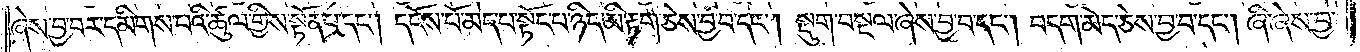ཞེས་བྱ་བར་དམིགས་པའི་ཚུལ་གྱིས་སྟོན་པ་དང༌། དངོས་པོ་མེད་པ་སྟོན་པ་ཉིད་མི་རྟག་ཅེས་བྱ་བ་དང༌། སྡུག་བསྔལ་ཞེས་བྱ་བ་དང༌། བདག་མེད་ཅེས་བྱ་བ་དང༌། ཞི་ཞེས་བྱ་
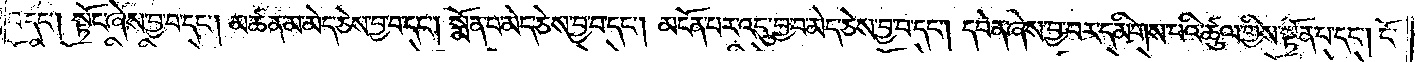བ་དང༌། སྟོང་ཞེས་བྱ་བ་དང༌། མཚན་མ་མེད་ཅེས་བྱ་བ་དང༌། སྨོན་པ་མེད་ཅེས་བྱ་བ་དང༌། མངོན་པར་འདུ་བྱ་བ་མེད་ཅེས་བྱ་བ་དང༌། དབེན་ཞེས་བྱ་བར་དམིགས་པའི་ཚུལ་གྱིས་སྟོན་པ་དང༌། ངོ་
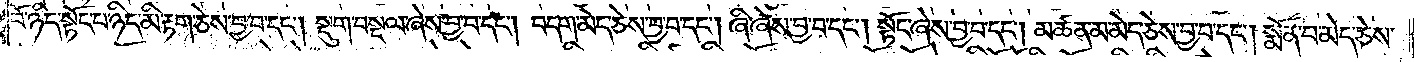བོ་ཉིད་སྟོང་པ་ཉིད་མི་རྟག་ཅེས་བྱ་བ་དང༌། སྡུག་བསྔལ་ཞེས་བྱ་བ་དང༌། བདག་མེད་ཅེས་བྱ་བ་དང༌། ཞི་ཞེས་བྱ་བ་དང༌། སྟོང་ཞེས་བྱ་བ་དང༌། མཚན་མ་མེད་ཅེས་བྱ་བ་དང༌། སྨོན་པ་མེད་ཅེས་
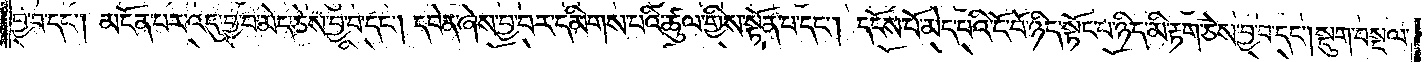བྱ་བ་དང༌། མངོན་པར་འདུ་བྱ་བ་མེད་ཅེས་བྱ་བ་དང༌། དབེན་ཞེས་བྱ་བར་དམིགས་པའི་ཚུལ་གྱིས་སྟོན་པ་དང༌། དངོས་པོ་མེད་པའི་ངོ་བོ་སྟོང་པ་ཉིད་མི་རྟག་ཅེས་བྱ་བ་དང༌། སྡུག་བསྔལ་
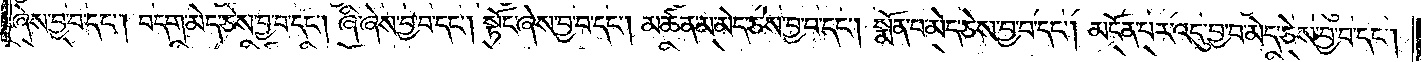ཞེས་བྱ་བ་དང༌། བདག་མེད་ཅེས་བྱ་བ་དང༌། ཞི་ཞེས་བྱ་བ་དང༌། སྟོང་ཞེས་བྱ་བ་དང༌། མཚན་མ་མེད་ཅེས་བྱ་བ་དང༌། སྨོན་པ་མེད་ཅེས་བྱ་བ་དང༌། མངོན་པར་འདུ་བྱ་བ་མེད་ཅེས་བྱ་བ་དང༌།
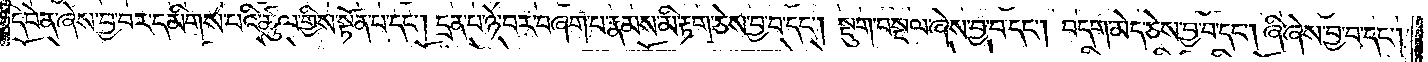དབེན་ཞེས་བྱ་བར་དམིགས་པའི་ཚུལ་གྱིས་སྟོན་པ་དང༌། དྲན་པ་ཉེ་བར་བཞག་པ་རྣམས་མི་རྟག་ཅེས་བྱ་བ་དང༌། སྡུག་བསྔལ་ཞེས་བྱ་བ་དང༌། བདག་མེད་ཅེས་བྱ་བ་དང༌། ཞི་ཞེས་བྱ་བ་དང༌།
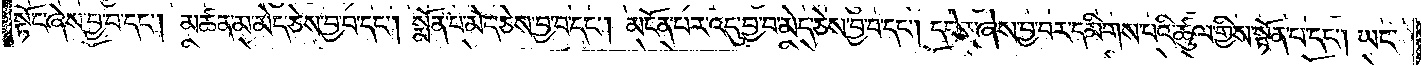སྟོང་ཞེས་བྱ་བ་དང༌། མཚན་མ་མེད་ཅེས་བྱ་བ་དང༌། སྨོན་པ་མེད་ཅེས་བྱ་བ་དང༌། མངོན་པར་འདུ་བྱ་བར་མེད་ཅེས་བྱ་བ་དང༌། དབེན་ཞེས་བྱ་བར་དམིགས་པའི་ཚུལ་གྱིས་སྟོན་པ་དང༌། ཡང་
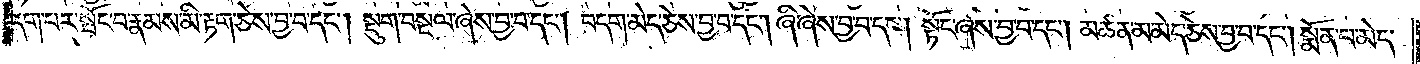དག་པར་སྤོང་བ་རྣམས་མི་རྟག་ཅེས་བྱ་བ་དང༌། སྡུག་བསྔལ་ཞེས་བྱ་བ་དང༌། བདག་མེད་ཅེས་བྱ་བ་དང༌། ཞི་ཞེས་བྱ་བ་དང༌། སྟོང་ཞེས་བྱ་བ་དང༌། མཚན་མ་མེད་ཅེས་བྱ་བ་དང༌། སྨོན་པ་མེད་
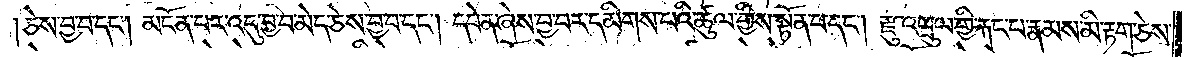ཅེས་བྱ་བ་དང༌། མངོན་པར་འདུ་བྱ་བ་མེད་ཅེས་བྱ་བ་དང༌། དབེན་ཞེས་བྱ་བར་དམིགས་པའི་ཚུལ་གྱིས་སྟོན་པ་དང༌། རྫུ་འཕྲུལ་གྱི་རྐང་པ་རྣམས་མི་རྟག་ཅེས་
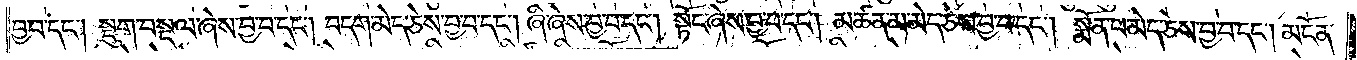བྱ་བ་དང༌། སྡུག་བསྔལ་ཞེས་བྱ་བ་དང༌། བདག་མེད་ཅེས་བྱ་བ་དང༌། ཞི་ཞེས་བྱ་བ་དང༌། སྟོང་ཞེས་བྱ་བ་དང༌། མཚན་མ་མེད་ཅེས་བྱ་བ་དང༌། སྨོན་པ་མེད་ཅེས་བྱ་བ་དང༌། མངོན་
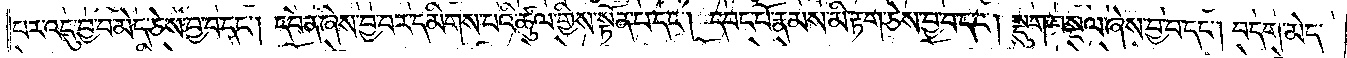པར་འདུ་བྱ་བ་མེད་ཅེས་བྱ་བ་དང༌། དབེན་ཞེས་བྱ་བར་དམིགས་པའི་ཚུལ་གྱི་སྟོན་པ་དང༌། དབང་པོ་རྣམས་མི་རྟག་ཅེས་བྱ་བ་དང༌། སྡུག་བསྔལ་ཞེས་བྱ་བ་དང༌། བདག་མེད་
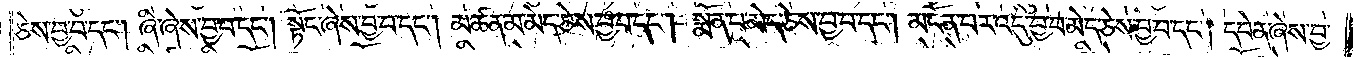ཅེས་བྱ་བ་དང༌། ཞི་ཞེས་བྱ་བ་དང༌། སྟོང་ཞེས་བྱ་བ་དང༌། མཚན་མ་མེད་ཅེས་བྱ་བ་དང༌། སྨོན་པ་མེད་ཅེས་བྱ་བ་དང༌། མངོན་པར་འདུ་བྱ་བ་མེད་ཅེས་བྱ་བ་དང༌། དབེན་ཞེས་བྱ་
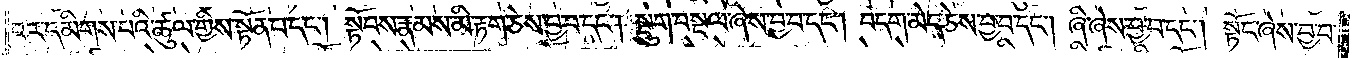བར་དམིགས་པའི་ཚུལ་གྱིས་སྟོན་པ་དང༌། སྟོབས་རྣམས་མི་རྟག་ཅེས་བྱ་བ་དང༌། སྡུག་བསྔལ་ཞེས་བྱ་བ་དང༌། བདག་མེད་ཅེས་བྱ་བ་དང༌། ཞི་ཞེས་བྱ་བ་དང༌། སྟོང་ཞེས་བྱ་བ་
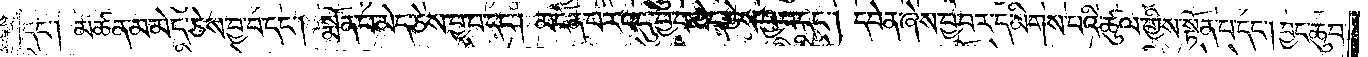དང༌། མཚན་མ་མེད་ཅེས་བྱ་བ་དང༌། སྨོན་པ་མེད་ཅེས་བྱ་བ་དང༌། མངོན་པར་འདུ་བྱ་བ་མེད་ཅེས་བྱ་བ་དང༌། དབེན་ཞེས་བྱ་བར་དམིགས་པའི་ཚུལ་གྱིས་སྟོན་པ་དང༌། བྱང་ཆུབ་
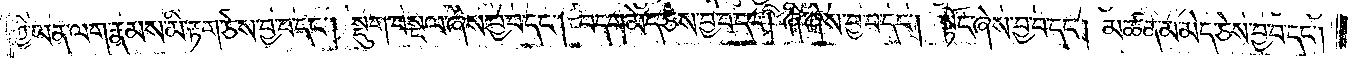ཀྱི་ཡན་ལག་རྣམས་མི་རྟག་ཅེས་བྱ་བ་དང༌། སྡུག་བསྔལ་ཞེས་བྱ་བ་དང༌། བདག་མེད་ཅེས་བྱ་བ་དང༌། ཞི་ཞེས་བྱ་བ་དང༌། སྟོང་ཞེས་བྱ་བ་དང༌། མཚན་མ་མེད་ཅེས་བྱ་བ་དང༌།
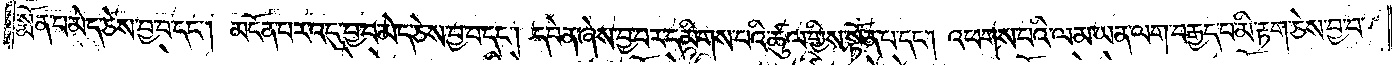སྨོན་པ་མེད་ཅེས་བྱ་བ་དང༌། མངོན་པར་འདུ་བྱ་བ་མེད་ཅེས་བྱ་བ་དང༌། དབེན་ཞེས་བྱ་བར་དམིགས་པའི་ཚུལ་གྱིས་སྟོན་པ་དང༌། འཕགས་པའི་ལམ་ཡན་ལག་བརྒྱད་པ་མི་རྟག་ཅེས་བྱ་བ་
